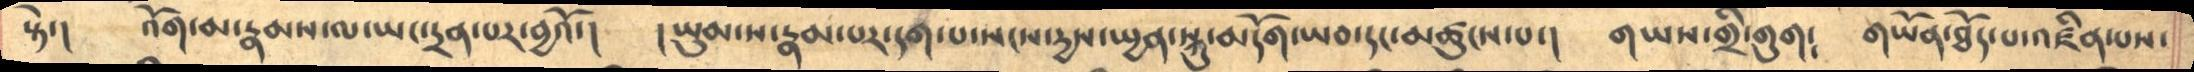སྟེ་།    འོག་མ་རྣམས་ལ་ཡང་དྲན་པར་བྱའོ་།     །ཡུམ་ས་རྣམ་པར་དག་པ་སངས་དྱས་ཡྱན་སྐུ་མདོག་ཡབ་དང་མཚུངས་པ་།     གཡས་གྲི་གུག༴      གཡོན་ཐོད་པ་འཛིན་པས་
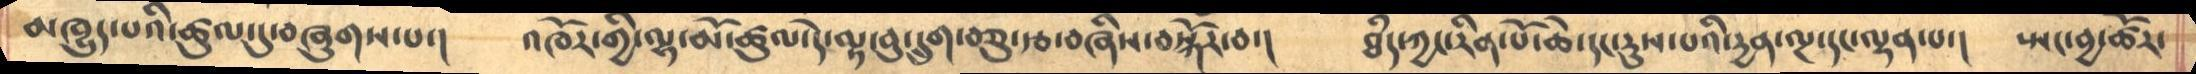མཁྱུད་པའི་ཚུལ་དུ་བཞུགས་པ་།        འཁོར་གྱི་ལྷ་མོ་ཚུལ་དེ་ལྟ་བུ་དྲུག་བཅུ་རྩ་བཞིས་བསྐོར་བ་།     ཐཾད་ཀྱང་རིན་པོ་ཆེ་དང་རུས་པའི་དྱན་ལྔ་དང་ལྡན་པ་།    སྤང་བྱ་ཚོར་
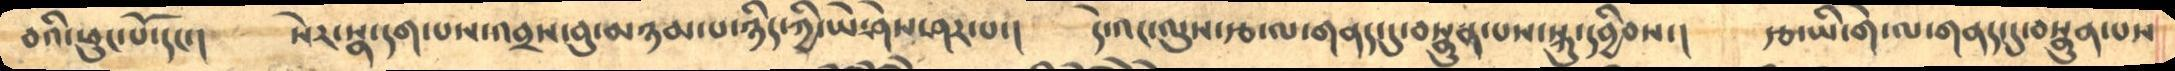བའི་ཕུང་པོ་དང་།     སེར་སྣ་དག་པས་འབྲས་བུ་མཉམ་པ་ཉིད་ཀྱི་ཡེ་ཤེས་ཤར་པ་།   དེ་འང་ལུས་རྩ་ལ་གནད་དུ་བསྣུན་པས་སྐུ་དབྱིབས་།    རྩ་ཡི་གེ་ལ་གནད་དུ་བསྣུན་པས
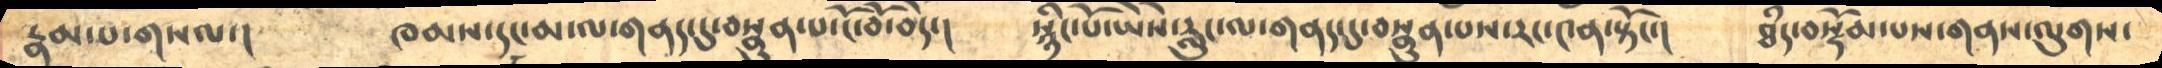རྣམ་པ་གསལ་།     ཁམས་དང་མ་ལ་གནད་དུ་བསྣུན་པ་ངོ་བོ་བདེ་།      སྙིང་པོ་ཡཻས་རླུང་ལ་གནད་དུ་བསྣུན་པས་རང་༤ན་སྟོང་།     ཐཾད་བསྡོམ་པས་གནས་ལུགས་
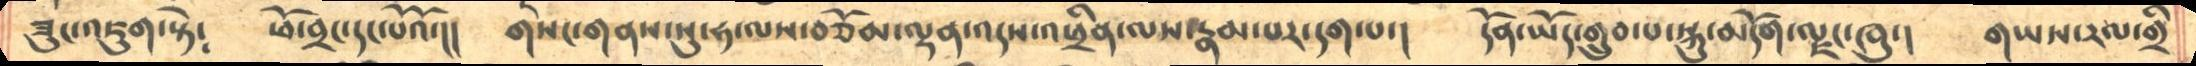ཟུང་འཇུག་སྟེ༴     ཕོ་བྲང་དང་པོའོ་།།     གསང་གནས་སུ་ཧ་ལས་བཅོམ་ལྡན་འདས་འཕྲིན་ལས་རྣམ་པར་དག་པ་།    དོན་ཡོད་གྲུབ་པ་སྐུ་མདོག་ལྗང་ཁུ་།    གཡས་རལ་གྲི
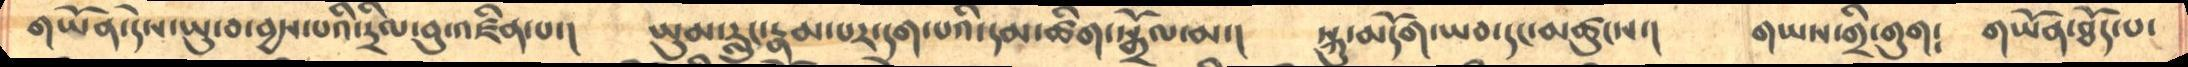གཡོན་དེས་ཡུ་བ་བྱས་པའི་དྲིལ་བུ་འཛིན་པ་།      ཡུམ་རླུང་རྣམ་པར་དག་པའི་དམ་ཚིག་སྒྲོལ་མ་།     སྐུ་མདོག་ཡབ་དང་མཚུངས་།     གཡས་གྲི་གུག༴      གཡོན་ཐོད་པ་
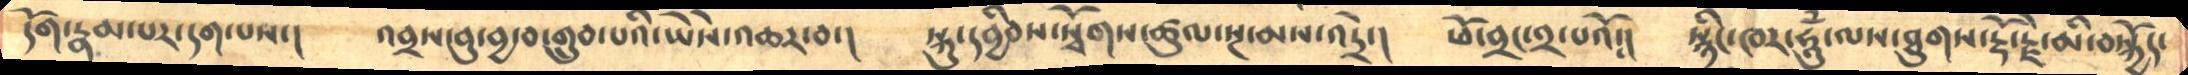དོག་རྣམ་པར་དག་པས་།      འབྲས་བུ་བྱ་བ་གྲུབ་པའི་ཡཻས་འཆར་བ་།      སྐུ་དབྱིབས་སྭོགས་ཚུལ་སྔ་མས་འདྲེ་།       ཕོ་བྲང་༢་པའོ༴།   སྙིང་ཁར་ཧཱུཾ་ལས་ཐུགས་རྡོ་རྗེ་མི་བསྐྱོད་
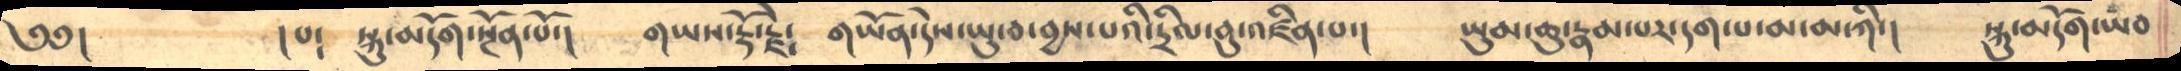༄༅།          །པ་་    སྐུ་མདོག་སྔོན་པོ་།     གཡས་རྡོ་རྗེ༴    གཡོན་དེས་ཡུ་བ་བྱས་པའི་དྲིལ་བུ་འཛིན་པ་།      ཡུམ་ཆུ་རྣམ་པར་དག་པ་མ་མ་ཀི་།    སྐུ་མདོག་ཡབ
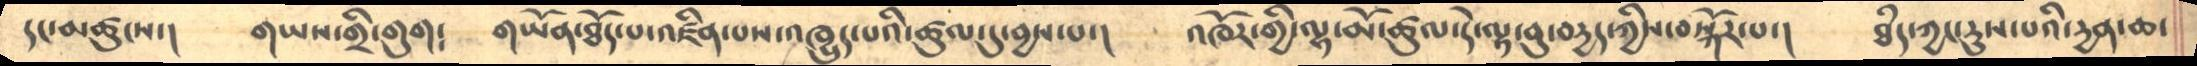དང་མཚུངས་།      གཡས་གྲི་གུག༴     གཡོན་ཐོད་པ་འཛིན་པས་འཁྱུད་པའི་ཚུལ་དུ་བྱས་པ་།     འཁོར་གྱི་ལྷ་མོ་ཚུལ་དེ་ལྟ་བུ་བདྱད་ཀྱིས་བསྐོར་པ་།     ཐཾད་ཀྱང་རུས་པའི་དྱན་ཆ་
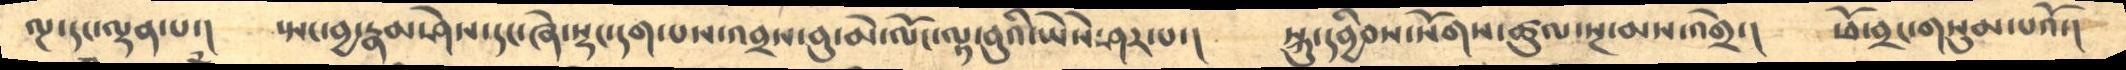ལྔ་དང་ལྡན་པ་།      སྤང་བྱ་རྣམ་ཤེས་དང་ཞེ་སྡང་དག་པས་འབྲས་བུ་མེ་ལོང་ལྟ་བུའི་ཡཻས་ཤར་པ་།      སྐུ་དབྱིབས་སོགས་ཚུལ་སྔ་མས་འགྲེ་།      ཕོ་བྲང་གསུམ་པའོ་།
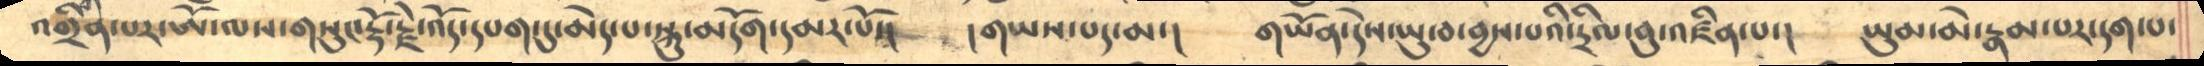འགྲིན་པར་ཨོཾ་ལས་གསུང་རྡོ་རྗེ་འོད་དཔག་དུ་མེད་པ་སྐུ་མདོག་དམར་པོ་།       །གཡས་པད་མ་།     གཡོན་དེས་ཡུ་བ་བྱས་པའི་དྲིལ་བུ་འཛིན་པ་།    ཡུམ་མེ་རྣམ་པར་དག་པ་
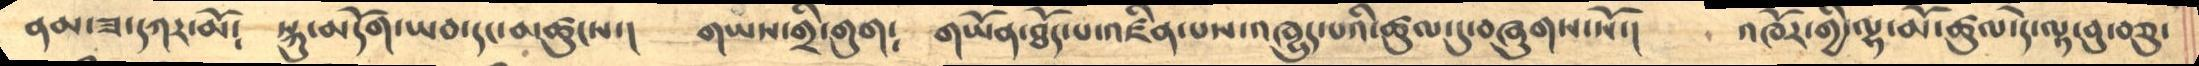ནམ་ཟ་དཀར་མོ༴      སྐུ་མདོག་ཡབ་དང་མཚུངས་།    གཡས་གྲི་གུག༴     གཡོན་ཐོད་པ་འཛིན་པས་འཁྱུད་པའི་ཚུལ་དུ་བཞུགས་སོ་།     འཁོར་གྱི་ལྷ་མོ་ཚུལ་དེ་ལྟ་བུ་བཅུ་
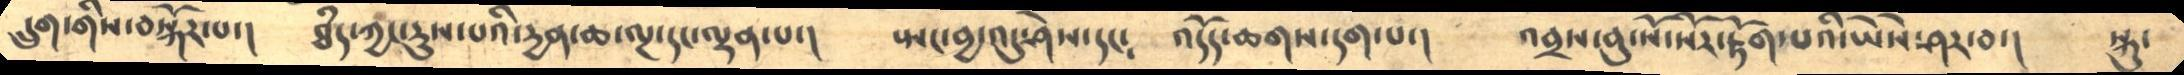དྲུག་གིས་བསྐོར་པ་།      ཐཾད་ཀྱང་རུས་པའི་དྱན་ཆ་ལྔ་དང་ལྡན་པ་།     སྤང་བྱ་འདུ་ཤེས་དང༴      འདོད་ཆགས་དག་པ་།    འབྲས་བུ་སོ་སོར་རྟོག་པའི་ཡཻས་ཤར་བ་།    སྐུ་
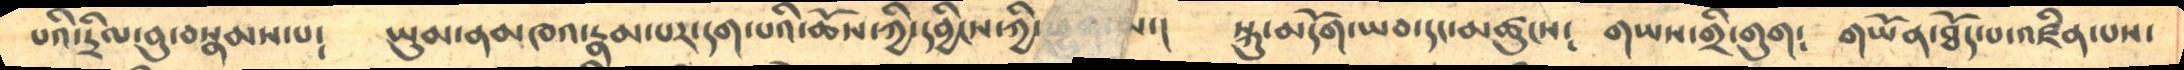པའི་དྲིལ་བུ་བསྣམས་པ༴      ཡུམ་ནམཁའ་རྣམ་པར་དག་པའི་ཆོས་ཀྱི་    ས་།         སྐུ་མདོག་ཡབ་དང་མཚུངས༴    གཡས་གྲི་གུག༴     གཡོན་ཐོད་པ་འཛིན་པས་
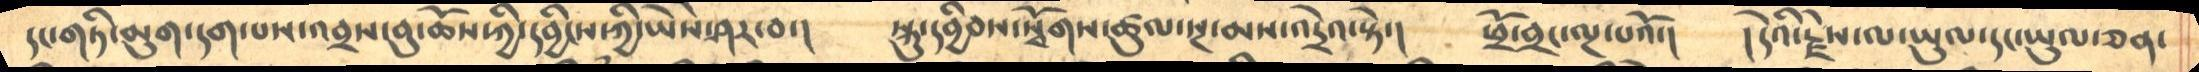དང་གཏི་མུག་དག་པས་འབྲས་བུ་ཆོས་ཀྱི་དབྱིངས་ཀྱི་ཡཻས་ཤར་བ་།    སྐུ་དབྱིབས་སྭོགས་ཚུལ་སྔ་མས་འདྲེའ་སྟེ་།       ཕྲོ་བྲང་ལྔ་པའོ་།     །དེའི་རྗེས་ལ་ཡུལ་དང་ཡུལ་ཅན་
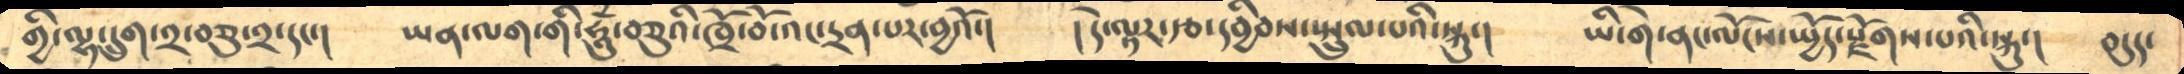གྱི་ལྷ་དྲུག་༢་བཅུ་༢་དང་།    ཡན་ལག་གི་ཧཱུཾ་བཅུའི་ཁྲོ་བོ་འང་དྲན་པར་བྱའོ་།      །དེ་ལྟར་རྩ་དབྱིབས་སྤྲུལ་པའི་སྐུ་།     ཡི་གེ་ནང་ལོངས་སྤྱོད་རྫོགས་པའི་སྐུ་།      བདུད་
